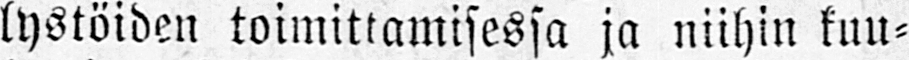lystöiden toimittamisessa ja niihin kuu-
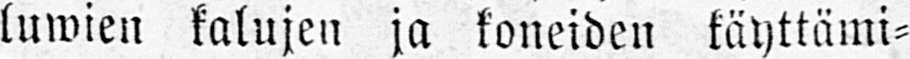luwien kalujen ja koneiden käyttämi-
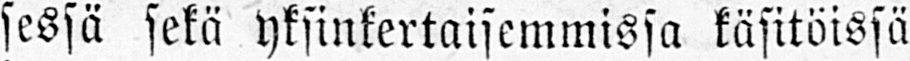sessä sekä yksinkertaisemmissa käsitöissä
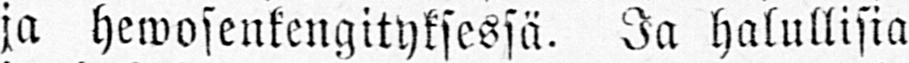ja hewosenkengityksessä. Ja halullisia
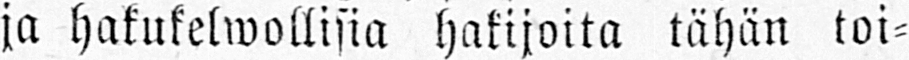ja hakukelwollisia hakijoita tähän toi-
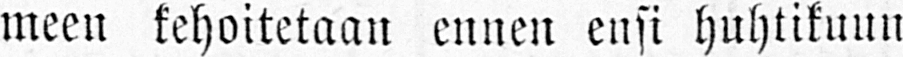meen kehoitetaan ennen ensi huhtikuun
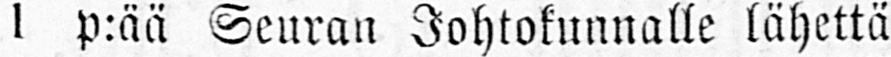1 p:ää Seuran Johtokunnalle lähettä-
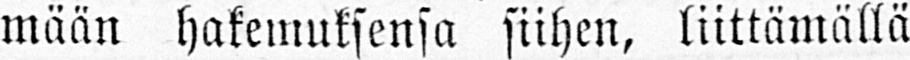mään hakemuksensa siihen, liittämällä
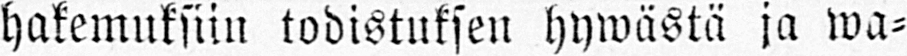hakemuksiin todistuksen hywästä ja wa-
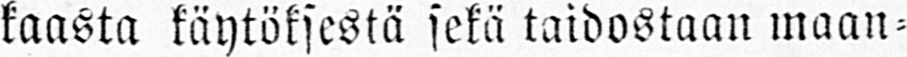kaasta käytöksestä sekä taidostaan maan-
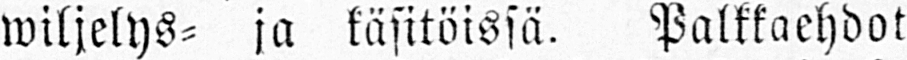wiljelys- ja käsitöissä. Palkkaehdot
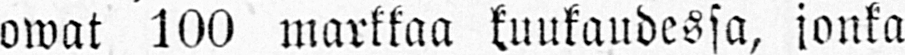owat 100 markkaa kuukaudessa, jonka
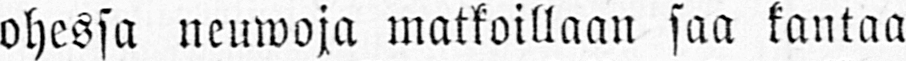ohessa neuwoja matkoillaan saa kantaa
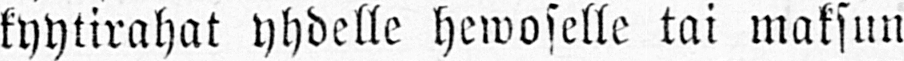kyytirahat yhdelle hewoselle tai maksun
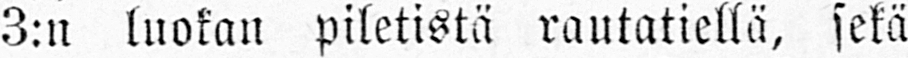3:n luokan piletistä rautatiellä, sekä
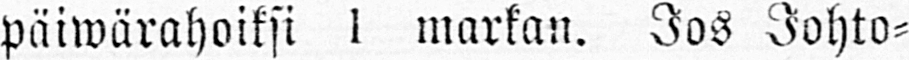päiwärahoiksi 1 markan. Jos Johto-
